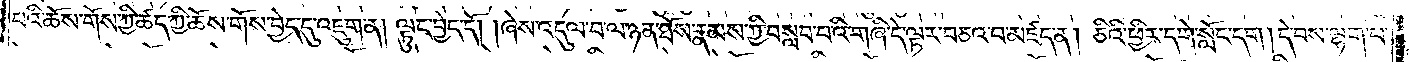པའི་ཆོས་གོས་ཀྱི་ཚད་ཀྱི་ཆོས་གོས་བྱེད་དུ་འཇུག་ན། ལྟུང་བྱེད་དོ། །ཞེས་འདུལ་བ་ལ་ཉན་ཐོས་རྣམས་ཀྱི་བསླབ་པའི་གཞི་དེ་ལྟར་བཅའ་བ་མཛད་ན། ཅིའི་ཕྱིར་དགེ་སློང་དག །དེ་བས་ལྷག་པ་
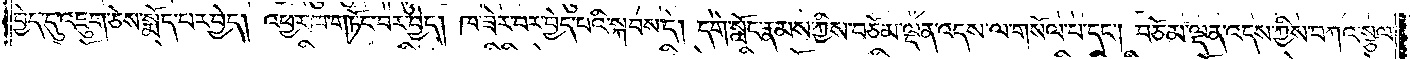བྱེད་དུ་འཇུག་ཅེས་སྨོད་པར་བྱེད། འཕྱར་ཁ་གཏོང་བར་བྱེད། ཁ་ཟེར་བར་བྱེད་པའི་སྐབས་དེ། དགེ་སློང་རྣམས་ཀྱིས་བཅོམ་ལྡན་འདས་ལ་གསོལ་པ་དང༌། བཅོམ་ལྡན་འདས་ཀྱིས་བཀའ་སྩལ་
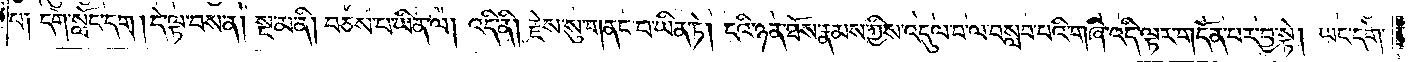པ༑ དགེ་སློང་དག །དེ་ལྟ་བས་ན། སྔ་མ་ནི། བཅས་པ་ཡིན་ལ། འདི་ནི། རྗེས་སུ་གནང་བ་ཡིན་ཏེ། ངའི་ཉན་ཐོས་རྣམས་ཀྱིས་འདུལ་བ་ལ་བསླབ་པའི་གཞི་འདི་ལྟར་གདོན་པར་བྱ་སྟེ། ཡང་དགེ་
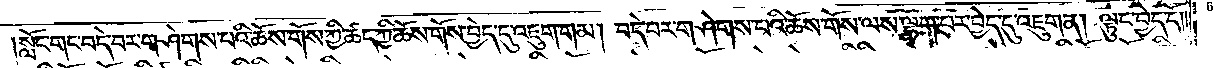།སློང་གང་བདེ་བར་གཤེགས་པའི་ཆོས་གོས་ཀྱི་ཚད་ཀྱི་ཆོས་གོས་བྱེད་དུ་འཇུག་གམ། བདེ་བར་གཤེགས་པའི་ཆོས་གོས་ལས་ལྷག་པར་བྱེད་དུ་འཇུག་ན། ལྟུང་བྱེད་དོ༎
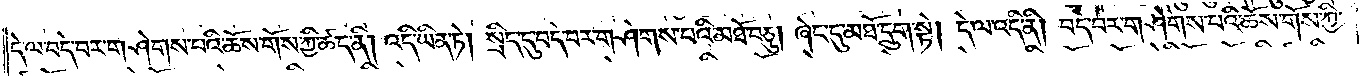དེ་ལ་བདེ་བར་གཤེགས་པའི་ཆོས་གོས་ཀྱི་ཚད་ནི། འདི་ཡིན་ཏེ། སྲིད་དུ་བདེ་བར་གཤེགས་པའི་མཐོ་བཅུ། ཞེང་དུ་མཐོ་དྲུག་སྟེ། དེ་ལ་འདི་ནི། བདེ་བར་གཤེགས་པའི་ཆོས་གོས་ཀྱི་
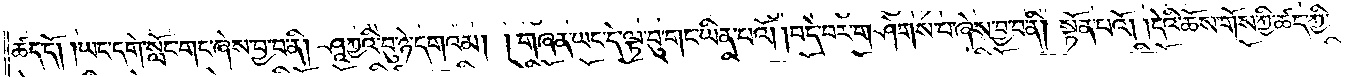ཚད་དོ། །ཡང་དགེ་སློང་གང་ཞེས་བྱ་བ་ནི། ཤཱཀྱའི་བུ་ཉེ་དགའམ། །གཞན་ཡང་དེ་ལྟ་བུ་གང་ཡིན་པའོ། །བདེ་བར་གཤེགས་པ་ཞེས་བྱ་བ་ནི། སྟོན་པའོ། །དེའི་ཆོས་གོས་ཀྱི་ཚད་ཀྱི་
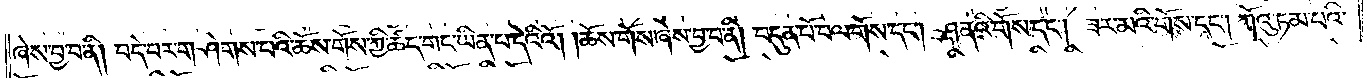ཞེས་བྱ་བ་ནི། བདེ་བར་གཤེགས་པའི་ཆོས་གོས་ཀྱི་ཚད་གང་ཡིན་པ་དེའིའོ། །ཆོས་གོས་ཞེས་བྱ་བ་ནི། བདུན་པོ་བལ་གོས་དང༌། ཤ་ནའི་གོས་དང༌། ཟར་མའི་གོས་དང༌། ཀོའུ་ཏམ་པའི་
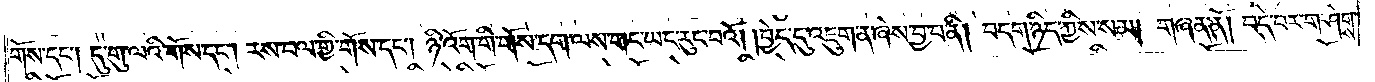གོས་དང༌། དུ་གུ་ལའི་གོས་དང༌། རས་བལ་གྱི་གོས་དང༌། ཉི་འོག་གི་གོས་དག་ལས་གང་ཡང་རུང་བའོ། །བྱེད་དུ་འཇུག་ན་ཞེས་བྱ་བ་ནི། བདག་ཉིད་ཀྱིས་སམ། གཞན་ནོ། །བདེ་བར་གཤེགས་
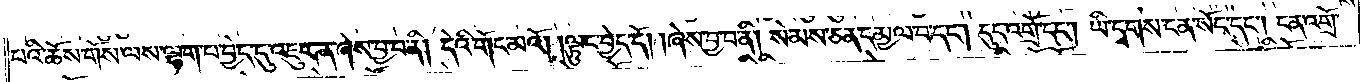པའི་ཆོས་གོས་ལས་ལྷག་པ་བྱེད་དུ་འཇུག་ན་ཞེས་བྱ་བ་ནི། དེའི་གོང་མའོ། །ལྟུང་བྱེད་དོ། །ཞེས་བྱ་བ་ནི། སེམས་ཅན་དམྱལ་བ་དང༌། དུད་འགྲོ་དང༌། ཡི་དྭགས་ངན་སོང་དང༌། ངན་འགྲོ་
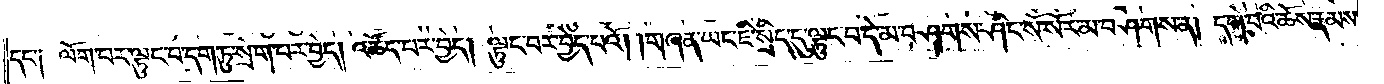དང༌། ལོག་པར་ལྟུང་བ་དག་ཏུ་སྲེག་པར་བྱེད། འཚོད་པར་བྱེད། ལྟུང་བར་བྱེད་པའོ། །གཞན་ཡང་ཇི་སྲིད་དུ་ལྟུང་བ་དེ་མ་བཤགས་ཤིང་སོ་སོར་མ་བཤགས་ན། དགེ་བའི་ཆོས་རྣམས་
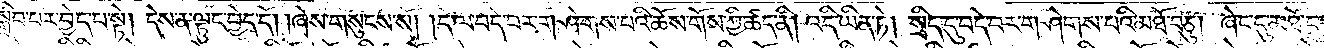ལ་སྒྲིབ་པར་བྱེད་པ་སྟེ། དེས་ན་ལྟུང་བྱེད་དོ། །ཞེས་གསུངས་སོ། །དེ་ལ་བདེ་བར་གཤེགས་པའི་ཆོས་གོས་ཀྱི་ཚད་ནི། འདི་ཡིན་ཏེ། སྲིད་དུ་བདེ་བར་གཤེགས་པའི་མཐོ་བཅུ། ཞེང་དུ་མཐོ་དྲུག་
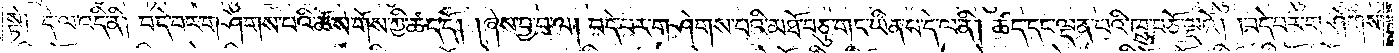སྟེ༑ དེ་ལ་འདི་ནི། བདེ་བར་གཤེགས་པའི་ཆོས་གྲོས་ཀྱི་ཚད་དོ། །ཞེས་བྱ་བ་ལ། བདེ་བར་གཤེགས་པའི་མཐོ་བཅུ་གང་ཡིན་པ་དེ་ལ་ནི། ཚད་དང་ལྡན་པའི་ཁྲུ་བཅོ་ལྔའོ། །བདེ་བར་གཤེགས་
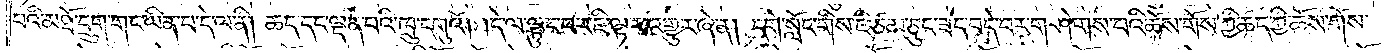པའི་མཐོ་དྲུག་གང་ཡིན་པ་དེ་ལ་ནི། ཆད་དང་ལྡན་པའི་ཁྲུ་དགུའོ། །དེ་ལ་ལྟུང་བར་ཇི་ལྟར་འགྱུར་ཞེ་ན། དགེ་སློང་གིས་ཇི་ཙམ་ཅུང་ཟད་བདེ་བར་གཤེགས་པའི་ཆོས་གོས་ཀྱི་ཚད་ཀྱི་ཆོས་གོས་
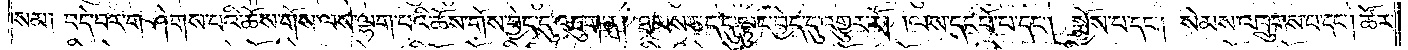སམ༑ བདེ་བར་གཤེགས་པའི་ཆོས་གོས་ལས་ལྷག་པའི་ཆོས་གོས་བྱེད་དུ་འཇུག་ན། ཐམས་ཅད་དུ་ལྟུང་བྱེད་དུ་འགྱུར་རོ། །ལས་དང་པོ་པ་དང༌། སྨྱོས་པ་དང༌། སེམས་འཁྲུགས་པ་དང༌། ཚོར་
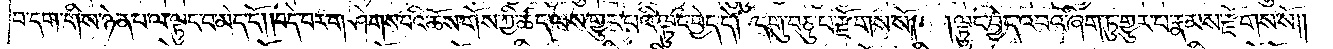བ་དག་གིས་ཉེན་པ་ལ་ལྟུང་བ་མེད་དོ། །བདེ་བར་གཤེགས་པའི་ཆོས་གོས་ཀྱི་ཚད་ལས་གྱུར་པའི་ལྟུང་བྱེད་དེ། དགུ་བཅུ་པ་རྫོགས་སོ། །ལྟུང་བྱེད་འབའ་ཞིག་ཏུ་གྱུར་པ་རྣམས་རྫོགས་སོ༎
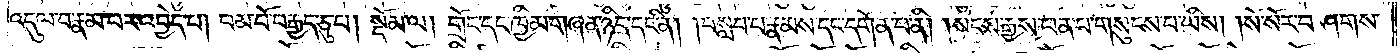འདུལ་བ་རྣལ་པར་འབྱེད་པ། བམ་པོ་བརྒྱད་ཅུ་པ། སྡོམ་ལ། གྲོང་དང་ཁྱིམ་གཞན་ཉིད་དང་ནི། །བསླབ་པ་རྣམས་དང་དགོན་པ་ནི། །སངས་རྒྱས་ཕན་པ་གསུངས་པ་ཡིས། །སོ་སོར་བཤགས་
